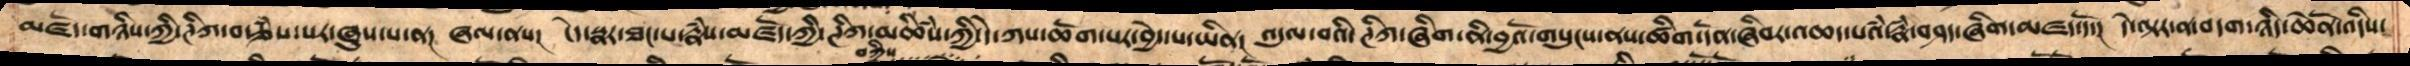མཛོད་གཉིས་ཀྱི་ཊིཀ་བརྩཾས་པར་ཞུས་པ་ན།  ཞལ་ནས། ངེད་སྣར་ཐང་པ་རྣཾས་མཛོད་ཀྱི་ཊིཀ་བཀྲིས་མཚིཾས་ཀྱི་དེ་ཀས་ཆོག་པར་བྱེད་པ་ཡིན། འདུལ་བའི་ཊིཀ་ཞིག་ནི་བྱའོ་གསུངས་ནས་ཚིག་དོན་ཞིབར་འཆད་པའཾ་རྣཾ་བཤད་ཞིག་མཛད་དོ།  དེ་ལྟར་ན་བདག་ཉིད་ཆེནོ་འདིས་
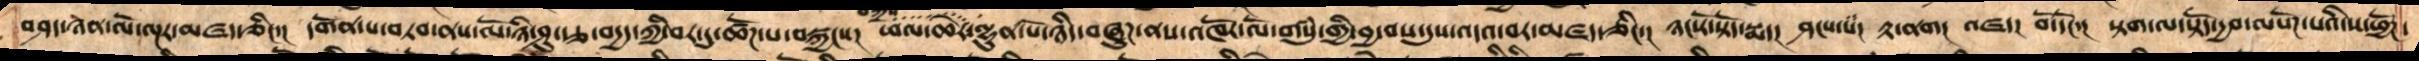བཤད་ཉན་ལོ་ལྔར་མཛད་ཅིང་། དགོན་པ་བཏབ་ནས་ལོ་ཉི་ཤུ་རྩ་བདྱད་ཀྱི་བར་དུ་ཚོཌ་པ་བསྐྱངས། ཕལ་ཆེར་བཀྲིས་ལྷུན་པོ་ཉིད་བཞུཌ་ནས་འཁོར་ལོ་གསུཾ་གྱི་བྱ་བས་དུས་འདའ་བར་མཛད་ཅིང་། ཉང་རོ་སྟོད་སྨད།  ཤངས་སཾ། རྟ་ནག།  འཛད། བོ་དོང་། སྟག་ལ་སྟོད་དྱབ་ལསོཌ་པའི་ས་ཕྱོཌ་
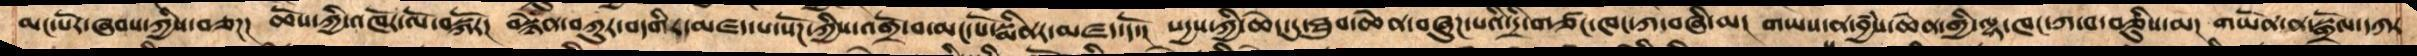མང་པོར་ཞབས་ཀྱིས་བཅཌ།  ཆོས་ཀྱི་འཁོར་ལོ་བསྐོར།  བསྙེན་བཀུར་བདགིར་མཛད་པ་སོཌ་ཀྱིས་འགྲོ་བ་མང་པོ་སྨིནར་མཛད་དོ།  སདྱས་ཀྱི་ཆེད་དུ་ཐུབ་ཆེན་བཞུཌ་པའི་དྲི་གཙང་ཁང་ཀ་བཞི་མ།  གཡས་ན་བྱཾས་ཆེན་གྱི་ལྷ་ཁང་ཀ་བ་བཅིུས་མ།  གཡོན་ན་སྒྲོལ་དཀར་
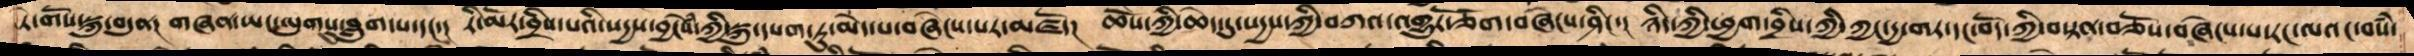ཏེ་གོས་སྐུ་བདུན།  གཞན་ཡང་ལུགསུ་བླུག་པ་དང་།  རི་མོར་བྲིས་པའི་སདྱས་བྱངེཾས་ཀྱི་སྐུ་དཔག་ཏུ་མེད་པ་བཞེངས་པར་མཛདོ།  ཆོས་ཀྱི་ཆེད་དུ་སདྱས་ཀྱི་བཀའ་འགྱུརོ་ཅོག་བཞེངས་ཤིང་།  ཉིད་ཀྱི་ཕྱག་བྲིས་ཀྱི་ཀྱང་དྱ་གར་དང་བོད་ཀྱི་བསྟན་བཅོས་བཞེངས་པ་རང་ལའང་བསཾ་
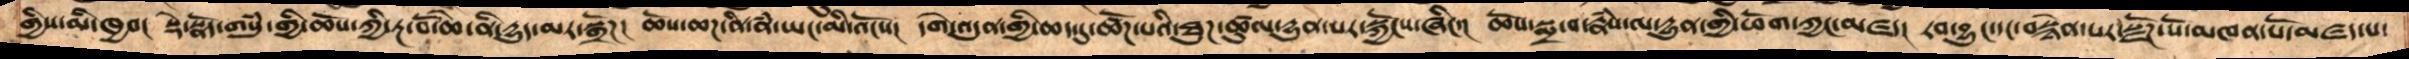གྱིས་མི་ཁྱབ།  སྡེ་སྣོད་གསུཾ་གྱི་ཆོས་ཀྱི་རྔ་བོ་ཆེ་ནི་དྱུད་མར་སྒྲོཌ།  ཆོས་ཆཌ་ནི་ནཾ་ཡང་མི་འོངས།  དགེ་འདུན་གྱི་ཆད་དུ་ཚོཌ་པའི་ཐུཌ་ཚུལ་དྱུན་པར་སྐྱོངས་ཞིང་།  ཆོས་སྨྲ་བ་རྣཾས་ལ་དྱུན་གྱི་ཕོག་ཀྱང་མཛད།  རབ་བྱུང་དང་བསྙེན་པར་སྫོཌ་སོ་མཁན་པོ་མཛད་པ་
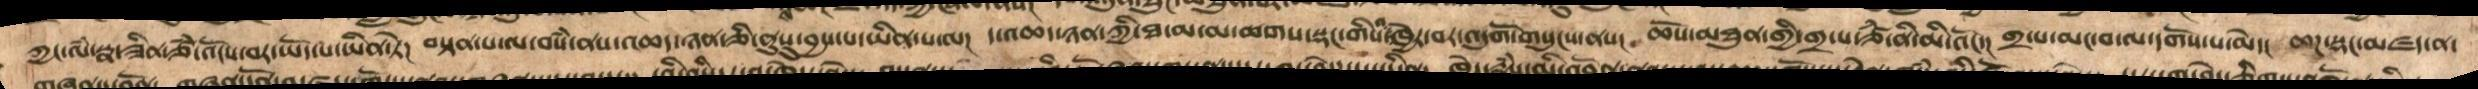ཀྱང་ལཾ་སྣ་ཟིན་ཙཾ་འོངས་བར་ཡོད་པ་ཡིན་ཏེ། བསྟན་པ་ལ་བསཾ་ནས་འཆད་ཉན་ཅི་ནུསུ་བྱས་པ་ཡིན་པ་ལ། ད་འཆད་ཉན་གྱི་ཐ་མ་ཆགས་སྡང་གིས་འཁྱེར་བར་འདུགོ་གསུངས་ནས།  ཆོས་མཐུན་གྱི་གྲ་པ་ཙཾ་ནི་མི་འོང་། གྲ་པ་མང་བ་ལ་དགོས་པ་མེད། ཆཌ་སྡང་མཛད་ན་
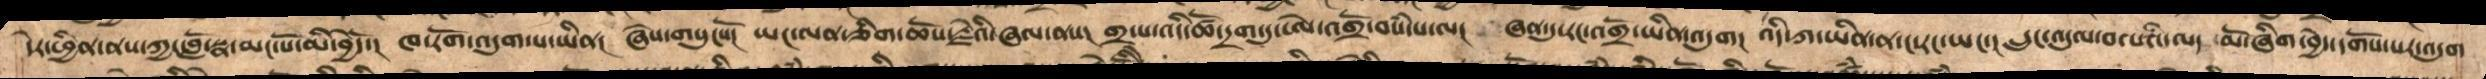དེར་ཕྱིན་ནས་ཀྱང་བློ་སྣ་མང་པོ་མི་བྱེདོ།  ཁ་རོག་འདུག་པ་ཡིན།  ཞེས་གསུངསོ།  ཡང་ལན་ཅིག་ཆོས་རྗེའི་ཞལ་ནས།  གྲ་པ་འདི་ཚོ་དྲག་དུ་ཨེ་འགྲོ་བསཾ་པ་ལ།  ཞན་དུ་རང་འགྲོ་ཡིན་འདུག།  འདི་ཀ་ཡིན་ན་ང་རང་ཡང་།  དྲུང་འདུལ་བ་པའི་ལད  མོ་ཞིག་བྱེད་དགོས་པར་འདུག
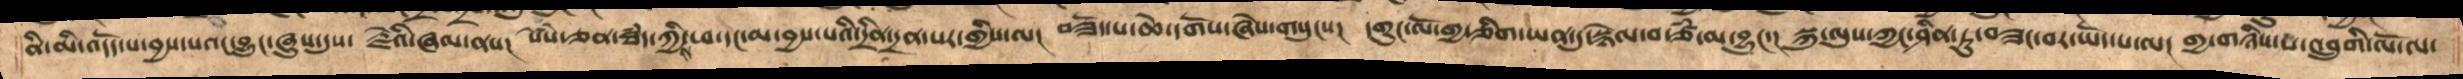ནི་མི་འདོད་པ་བྱས་པའང་བྱུང་ཞུས་དུས།  རྗེའི་ཞལ་ནས།  སེཾས་ཅན་ཐཾད་ཀྱིས་ཕ་དང་མ་བྱས་པའི་དྲིན་དྲན་པར་གྱིས་ལ།  བཟོད་པ་ཆེ་དགོས་ཞེས་གསུངས།  དགུང་ལོ་གྱ་ཅིག་ཡན་དུ་སྙེལ་བ་ཙཾ་མ་བྱུང་།  སྐུ་ལུས་ཀྱང་ཤིན་ཏུ་བཟང་བར་ཡོད་པ་ལ།  གྱ་གཉིས་པ་འབྲུགི་ལོ་ལ་
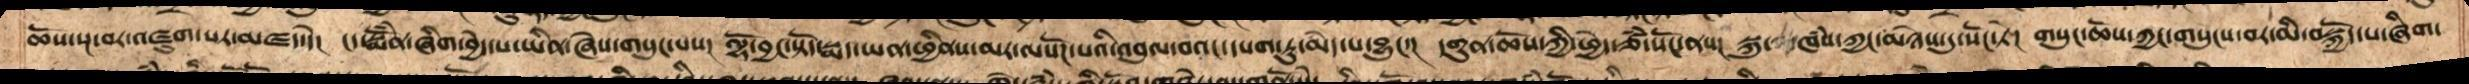ཆོས་སྔ་བར་འཛུག་པར་མཛད་དེ།  ང་སྨོཾན་ཞིག་བྱེད་པ་ཡིན་ཞེས་གསུང་པས།  ལྷོ་བྱང་སྟོད་སྨད་ཡན་ཕྱིནས་མར་ལསོཌ་པའི་འབུལ་བའང་དཔག་ཏུ་མེད་པ་བྱུང་།  དགུན་ཆོས་ཀྱི་ཕྱེད་ཙཾ་སོང་ནས།  སྐུ་ཁཾས་ཀྱང་མཉེས་དུ་སོང་ཏེ།  གསུང་ཆོས་ཀྱང་གསུངས་བར་མི་བསྐྱོད་པ་ཞིག་
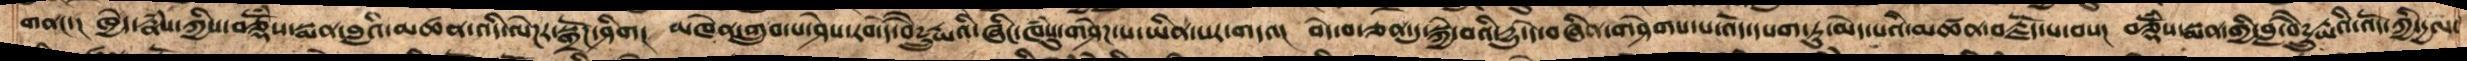གནང་།  ཁྱེད་རྣཾས་ཀྱིས་བཅྡོཾས་སྨན་བླའི་མཚན་འདི་ལེཌར་སྒྲོཌ་ཤིག།  མཁེན་གྲུབ་པ་ཤེས་རབ་དེ་བཻཌཱུརྱའི་ཞིང་ཁཾསུ་གཤེཌ་པ་ཡིན་པར་གདའ།  བདེ་བ་ཅན་དུ་སྐྱེ་བའི་དྱུ་དེ་བཞིན་གཤེགས་པ་འོད་དཔག་ཏུ་མེད་པའི་མཚན་བརྗོད་པ་བས།  བཅྡོཾས་སྨན་གྱི་བླ་བཻཌཱུརྱའི་འོད་ཀྱི་དྱལ་
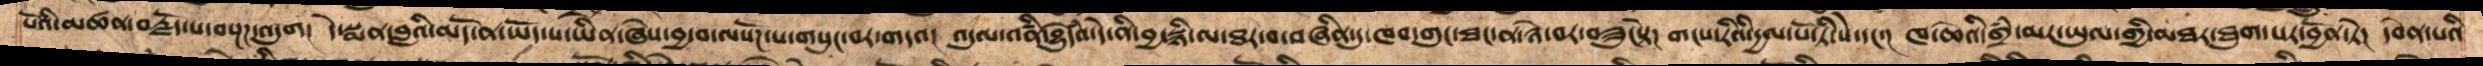པོའི་མཚན་བརྗོད་པ་བསྔཌ་འདུག  དེ་སྨན་བླའི་མདོ་ན་ཡོད་པ་ཡིན་ཞེས་བྱ་བ་ལསོཌ་པ་གསུང་བར་གདའ།  འདུལ་འཛིན་བྱེུདཾའ་དེ་ནི་བྱ་སྙི་ལ་ཐར་བ་བཞིན་དུ་ཁབ་གུང་ཐང་ན་ཉེ་བར་བཟུངསྟེ།  གངས་རིའི་དྱལ་པོ་ཏི་སེ་དང་།  ཁ་ཆེའི་གྲཾ་མར་ཡུལ་གྱི་མཐར་ཐུག་པར་བྱོན་ཏེ། དབེན་པའི་
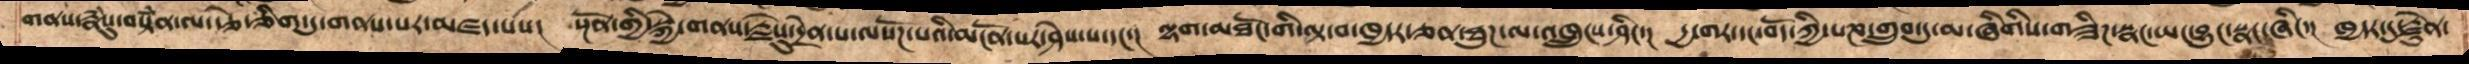གནས་རྣཾསུ་བསྟཾན་ལ་རྩེ་ཅིག་ཏུ་གནས་པར་མཛད་པས།  སྔོན་གྱི་སྐྱེ་གནས་རྗེསུ་དྲེན་པ་ལསོཌ་པའི་མངོན་པར་ཤེས་པ་དང་།  ལྷག་མཐོང་གི་ལྟ་བ་ཁྱདར་ཅན་ཐུཌ་ལ་འཁྲུངས་ཤིང་།  དྱ་གར་དང་བོད་ཀྱི་པཎ་གྲུབ་དུ་མ་ཞིགིས་གཟིཌ་སྣང་ཡང་བྱུང་སྣང་ཞིང་།  ཁྱདར་དུ་རྗེུན་
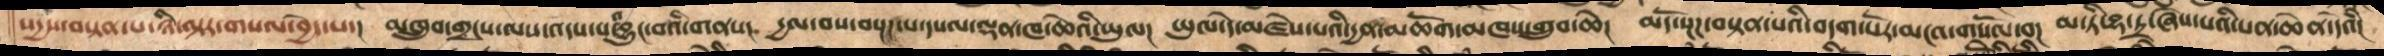སདྱས་བསྟན་པ་ཉི་ལྟར་གསལ་བྱེད་པ།  མཁྲུབ་གྲངས་ལས་འདས་པ་འབྱུང་བའི་གནས།  དྱལ་བས་བསྔཌ་པ་དཔལ་ལྡན་ཁ་ཆེའི་ཡུལ།  ཡུལ་དེ་མཛེས་པའི་དྱན་མཆོག་མཁས་གྲུབ་ཆེ།  མདོ་སྔཌ་བསྟན་པའི་བདག་པོར་མངའ་གསོལ་བ།  མ་ཏི་བྷ་ཏྲ་ཞེས་པའི་པན་ཆེན་དེའི།
